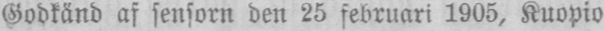Godkänd af sensorn den 25 februari 1905, Kuopio
